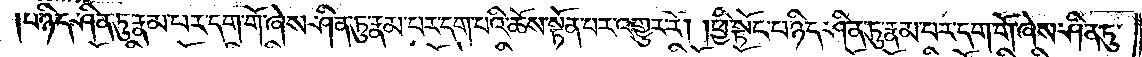པ་ཉིད་ཤིན་ཏུ་རྣམ་པར་དག་གོ་ཞེས་ཤིན་ཏུ་རྣམ་པར་དག་པའི་ཆོས་སྟོན་པར་འགྱུར་རོ། །ཕྱི་སྟོང་པ་ཉིད་ཤིན་ཏུ་རྣམ་པར་དག་གོ་ཞེས་ཤིན་ཏུ་
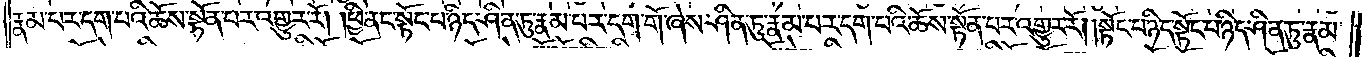རྣམ་པར་དག་པའི་ཆོས་སྟོན་པར་འགྱུར་རོ། །ཕྱི་ནང་སྟོང་པ་ཉིད་ཤིན་ཏུ་རྣམ་པར་དག་གོ་ཞེས་ཤིན་ཏུ་རྣམ་པར་དག་པའི་ཆོས་སྟོན་པར་འགྱུར་རོ། །སྟོང་པ་ཉིད་སྟོང་པ་ཉིད་ཤིན་ཏུ་རྣམ་
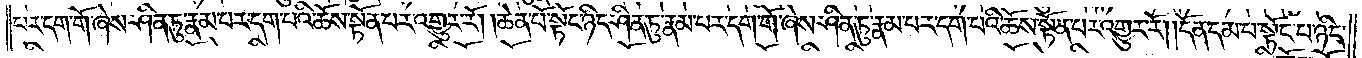པར་དག་གོ་ཞེས་ཤིན་ཏུ་རྣམ་པར་དག་པའི་ཆོས་སྟོན་པར་འགྱུར་རོ། །ཆེན་པོ་སྟོང་ཉིད་ཤིན་ཏུ་རྣམ་པར་དག་གོ་ཞེས་ཤིན་ཏུ་རྣམ་པར་དག་པའི་ཆོས་སྟོན་པར་འགྱུར་རོ། །དོན་དམ་པ་སྟོང་པ་ཉིད་
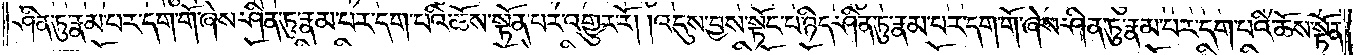ཤིན་ཏུ་རྣམ་པར་དག་གོ་ཞེས་ཤིན་ཏུ་རྣམ་པར་དག་པའི་ཆོས་སྟོན་པར་འགྱུར་རོ། །འདུས་བྱས་སྟོང་པ་ཉིད་ཤིན་ཏུ་རྣམ་པར་དག་གོ་ཞེས་ཤིན་ཏུ་རྣམ་པར་དག་པའི་ཆོས་སྟོན་
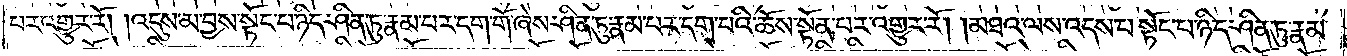པར་འགྱུར་རོ། །འདུས་མ་བྱས་སྟོང་པ་ཉིད་ཤིན་ཏུ་རྣམ་པར་དག་གོ་ཞས་ཤིན་ཏུ་རྣམ་པར་དག་པའི་ཆོས་སྟོན་པར་འགྱུར་རོ། །མཐའ་ལས་འདས་པ་སྟོང་པ་ཉིད་ཤིན་ཏུ་རྣམ་
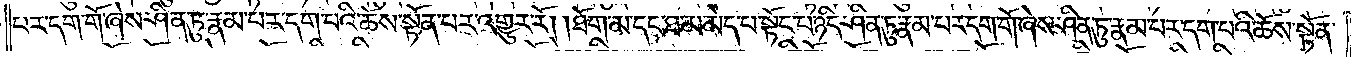པར་དག་གོ་ཞེས་ཤིན་ཏུ་རྣམ་པར་དག་པའི་ཆོས་སྟོན་པར་འགྱུར་རོ། །ཐོག་མ་དང་ཐ་མ་མེད་པ་སྟོང་པ་ཉིད་ཤིན་ཏུ་རྣམ་པར་དག་གོ་ཞེས་ཤིན་ཏུ་རྣམ་པར་དག་པའི་ཆོས་སྟོན་
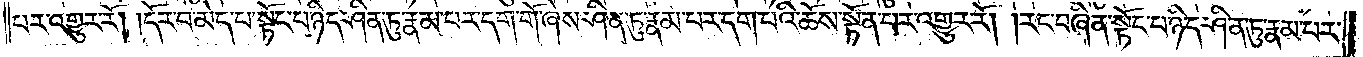པར་འགྱུར་རོ། །དོར་བ་མེད་པ་སྟོང་པ་ཉིད་ཤིན་ཏུ་རྣམ་པར་དག་གོ་ཞེས་ཤིན་ཏུ་རྣམ་པར་དག་པའི་ཆོས་སྟོན་པར་འགྱུར་རོ། །རང་བཞིན་སྟོང་པ་ཉིད་ཤིན་ཏུ་རྣམ་པར་
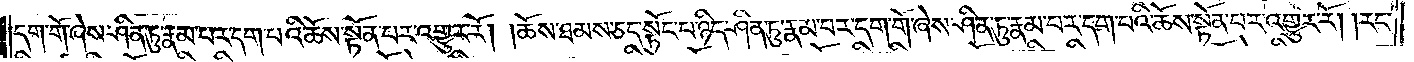དག་གོ་ཞེས་ཤིན་ཏུ་རྣམ་པར་དག་པའི་ཆོས་སྟོན་པར་འགྱུར་རོ། །ཆོས་ཐམས་ཅད་སྟོང་པ་ཉིད་ཤིན་ཏུ་རྣམ་པར་དག་གོ་ཞེས་ཤིན་ཏུ་རྣམ་པར་དག་པའི་ཆོས་སྟོན་པར་འགྱུར་རོ། །རང་
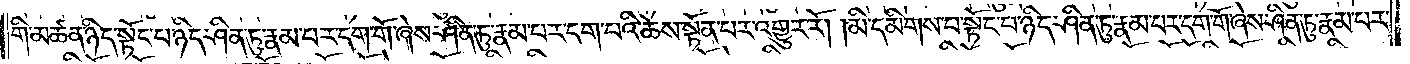གི་མཚན་ཉིད་སྟོང་པ་ཉིད་ཤིན་ཏུ་རྣམ་པར་དག་གོ་ཞེས་ཤིན་ཏུ་རྣམ་པར་དག་པའི་ཆོས་སྟོན་པར་འགྱུར་རོ། །མི་དམིགས་པ་སྟོང་པ་ཉིད་ཤིན་ཏུ་རྣམ་པར་དག་གོ་ཞེས་ཤིན་ཏུ་རྣམ་པར་
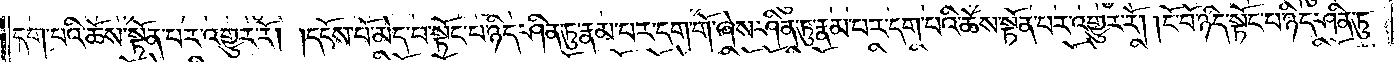དག་པའི་ཆོས་སྟོན་པར་འགྱུར་རོ། །དངོས་པོ་མེད་པ་སྟོང་པ་ཉིད་ཤིན་ཏུ་རྣམ་པར་དག་གོ་ཞེས་ཤིན་ཏུ་རྣམ་པར་དག་པའི་ཆོས་སྟོན་པར་འགྱུར་རོ། །ངོ་བོ་ཉིད་སྟོང་པ་ཉིད་ཤིན་ཏུ་
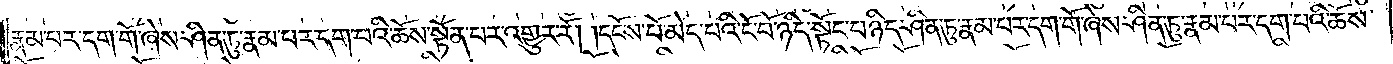རྣམ་པར་དག་གོ་ཞེས་ཤིན་ཏུ་རྣམ་པར་དག་པའི་ཆོས་སྟོན་པར་འགྱུར་རོ། །དངོས་པོ་མེད་པའི་ངོ་བོ་ཉིད་སྟོང་པ་ཉིད་ཤིན་ཏུ་རྣམ་པར་དག་གོ་ཞེས་ཤིན་ཏུ་རྣམ་པར་དག་པའི་ཆོས་
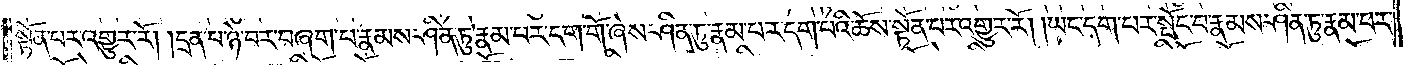སྟོན་པར་འགྱུར་རོ། །དྲན་པ་ཉེ་བར་བཞག་པ་རྣམས་ཤིན་ཏུ་རྣམ་པར་དག་གོ་ཞེས་ཤིན་ཏུ་རྣམ་པར་དག་པའི་ཆོས་སྟོན་པར་འགྱུར་རོ། །ཡང་དག་པར་སྤོང་བ་རྣམས་ཤིན་ཏུ་རྣམ་པར་
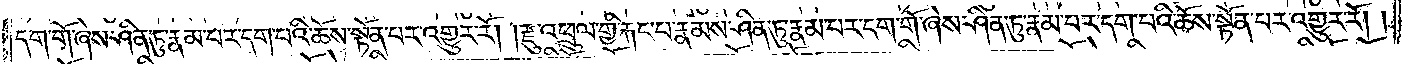དག་གོ་ཞེས་ཤིན་ཏུ་རྣམ་པར་དག་པའི་ཆོས་སྟོན་པར་འགྱུར་རོ། །རྫུ་འཕྲུལ་གྱི་རྐང་པ་རྣམས་ཤིན་ཏུ་རྣམ་པར་དག་གོ་ཞེས་ཤིན་ཏུ་རྣམ་པར་དག་པའི་ཆོས་སྟོན་པར་འགྱུར་རོ། །
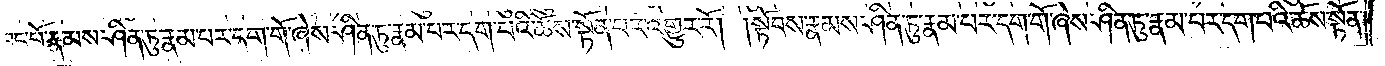དབང་པོ་རྣམས་ཤིན་ཏུ་རྣམ་པར་དག་གོ་ཞེས་ཤིན་ཏུ་རྣམ་པར་དག་པའི་ཆོས་སྟོན་པར་འགྱུར་རོ། །སྟོབས་རྣམས་ཤིན་ཏུ་རྣམ་པར་དག་གོ་ཞེས་ཤིན་ཏུ་རྣམ་པར་དག་པའི་ཆོས་སྟོན་
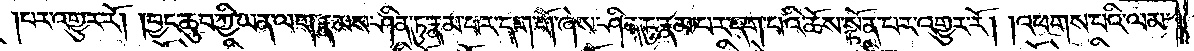པར་འགྱུར་རོ། །བྱང་ཆུབ་ཀྱི་ཡན་ལག་རྣམས་ཤིན་ཏུ་རྣམ་པར་དག་གོ་ཞེས་ཤིན་ཏུ་རྣམ་པར་དག་པའི་ཆོས་སྟོན་པར་འགྱུར་རོ། །འཕགས་པའི་ལམ་
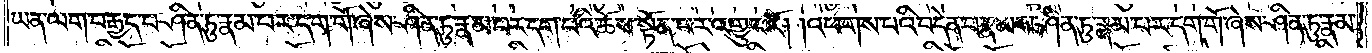ཡན་ལག་བརྒྱད་པ་ཤིན་ཏུ་རྣམ་པར་དག་གོ་ཞེས་ཤིན་ཏུ་རྣམ་པར་དག་པའི་ཆོས་སྟོན་པར་འགྱུར་རོ། །འཕགས་པའི་བདེན་པ་རྣམས་ཤིན་ཏུ་རྣམ་པར་དག་གོ་ཞེས་ཤིན་ཏུ་རྣམ་
